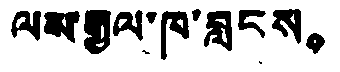ལས་རྒྱལ་ཁ་བླངས。
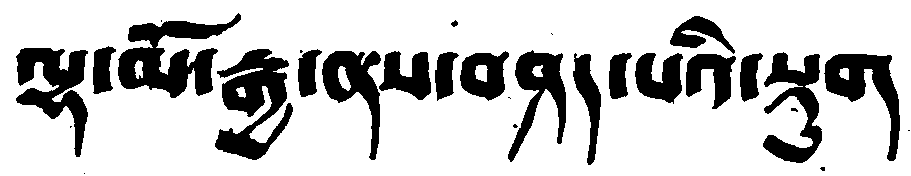ལྷ་མོ་རྒྱ་ནས་བཤད་པའི་སྡུག
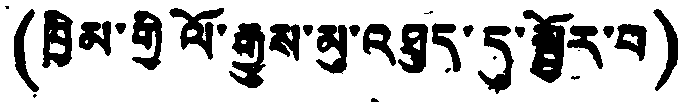(ཁྱིམ་གྱི ལོ་རྒྱུས་མུ་འཐུད་དུ་སྦྱོར་བ)
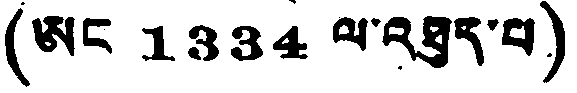(ཨང 1334 ལ་འཐུད་པ)
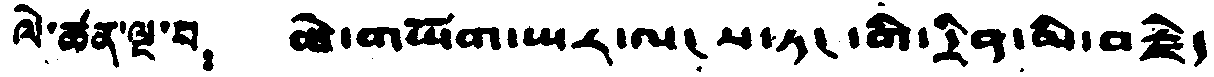ལེ་ཚན་ལྔ་པ： ཆེ་གཡོག་ཡར་ལ་ས་ཏང་གི་དྲིན་མི་བརྗེད
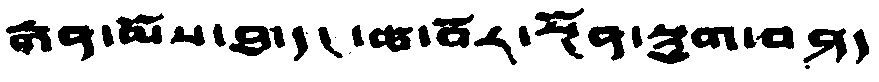རྒན་མོས་ཐ་དང་ཚ་བོར་སྔོན་སྡུག་བཤད
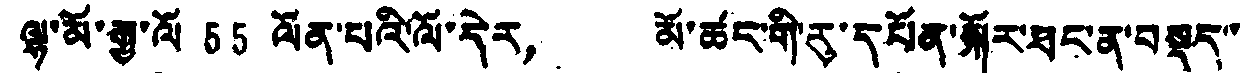ལྷ་མོ་རྒྱ་ལོ 55 ལོན་པའི་ལོ་དེར， མོ་ཚང་གི་རུ་དཔོན་སྐོར་ཐང་ན་བསྡད་་
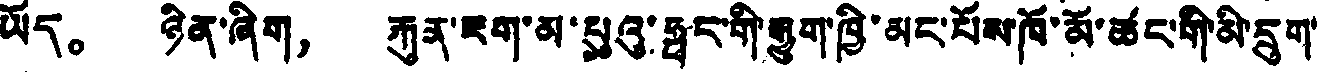ཡོད。 ཉིན་ཞིག， རྐུན་ཇག་མ་པུའུ་ཧྥང་གི་རྒྱུག་ཁྱི་མང་པོས་ཁོ་མོ་ཚང་གི་མི་དྲུག་
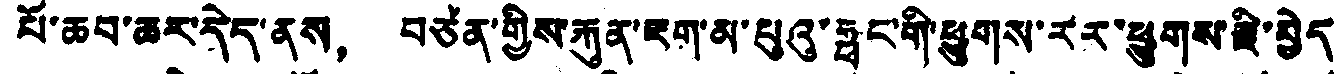པོ་ཆབ་ཆར་དེད་ནས， བཙན་གྱིས་རྐུན་ཇག་མ་པུའུ་ཧྥང་གི་ཕྱུགས་རར་ཕྱུགས་རྗི་བྱེད
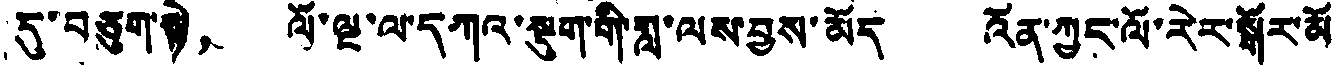དུ་བཅུག་སྟེ， ལོ་ལྔ་ལ་དཀའ་སྡུག་གི་གླ་ལས་བྱས་མོད འོན་ཀྱང་ལོ་རེར་སྒོར་མོ
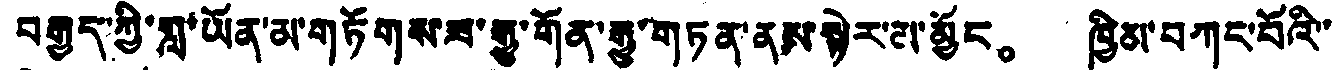བརྒྱད་ཀྱི་གླ་ཡོན་མ་གཏོགས་པ་རྒྱུ་གོན་རྒྱུ་གཏན་ནས་སྟེར་མ་མྱོང。 ཁྱིམ་བཀང་པོའི་་
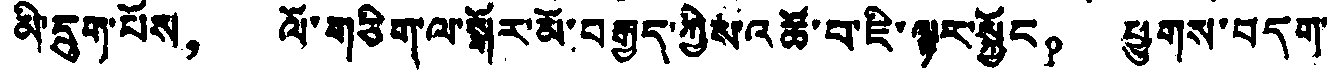མི་དྲུག་པོས， ལོ་གཅིག་ལ་སྒོར་མོ་བརྒྱད་ཀྱིས་འཚོ་བ་ཇི་ལྟར་སྐྱོང。 ཕྱུགས་བདག་
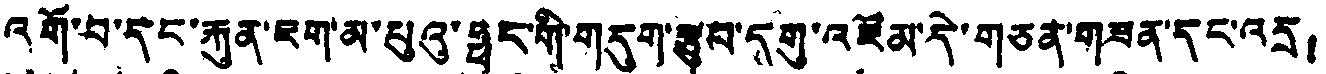འགོ་བ་དང་རྐུན་ཇག་མ་པུའུ་ཧྥང་གི་གདུག་རྩུབ་དགུ་འཛོམ་དེ་གཅན་གཟན་དང་འདྲ；
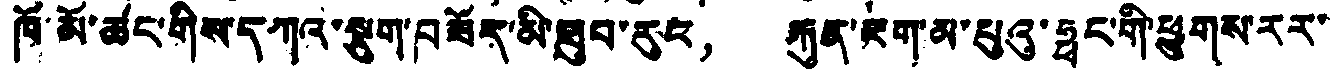ཁོ་མོ་ཚང་གིས་དཀའ་སྡུག་བཟོད་མི་ཐུབ་རུང， རྐུན་ཇག་མ་པུའུ་ཧྥང་གི་ཕྱུགས་རར་
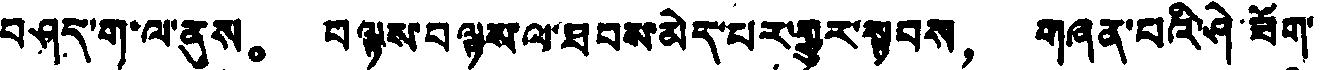བཤད་ག་ལ་ནུས。 བལྟས་བལྟས ལ་ཐབས་མེད་པར་གྱུར་སྐབས， གཞན་པའི་ཤེ་ཟོག་
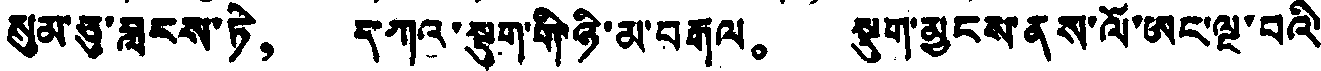སུམ་ཅུ་ཟླངས་ཏེ， དཀའ་སྡུག་གི་ཉི་མ་བརྒལ。 སྡུག་མྱངས་ནས་ལོ་ཨང་ལྔ་བའི་
